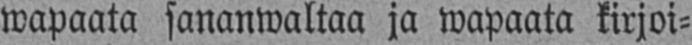wapaata sananwaltaa ja wapaata kirjoi-
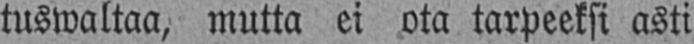tuswaltaa, mutta ei ota tarpeeksi asti
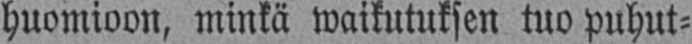huomioon, minkä waikutuksen tuo puhut-
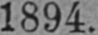1894.
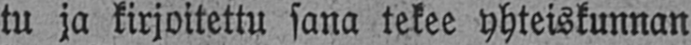tu ja kirjoitettu sana tekee yhteiskunnan
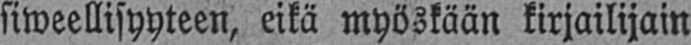siweellisyyteen, eikä myöskään kirjailijain
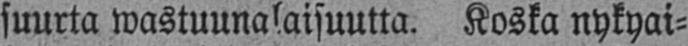suurta wastuunalaisuutta. Koska nykyai-
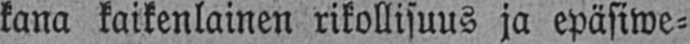kana kaikenlainen rikollisuus ja epäsiwe-
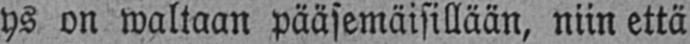ys on waltaan pääsemäisillään, niin että
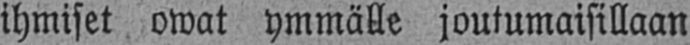ihmiset owat ymmälle joutumaisillaan
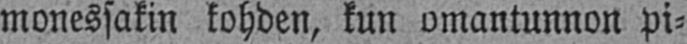monessakin kohden, kun omantunnon pi-
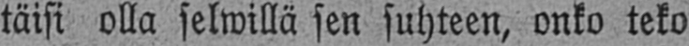täisi olla selwillä sen suhteen, onko teko
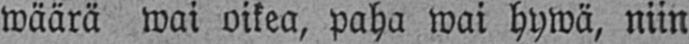wäärä wai oikea, paha wai hywä, niin
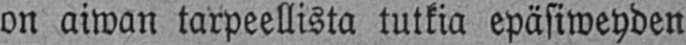on aiwan tarpeellista tutkia epäsiweyden
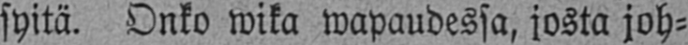syitä. Onko wika wapaudessa, josta joh-
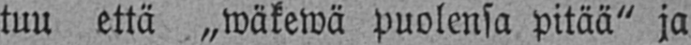tuu että „wäkewä puolensa pitää" ja
